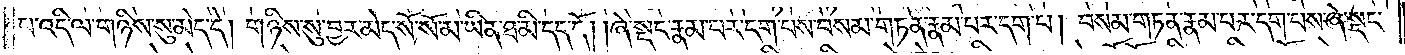པ་འདི་ལ་གཉིས་སུ་མེད་དེ། གཉིས་སུ་བྱར་མེད་སོ་སོ་མ་ཡིན་ཐ་མི་དད་དོ། །ཞེ་སྡང་རྣམ་པར་དག་པས་བསམ་གཏན་རྣམ་པར་དག་པ། བསམ་གཏན་རྣམ་པར་དག་པས་ཞེ་སྡང་
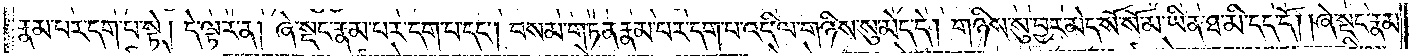རྣམ་པར་དག་པ་སྟེ། དེ་ལྟར་ན། ཞེ་སྡང་རྣམ་པར་དག་པ་དང༌། བསམ་གཏན་རྣམ་པར་དག་པ་འདི་ལ་གཉིས་སུ་མེད་དེ། གཉིས་སུ་བྱར་མེད་སོ་སོ་མ་ཡིན་ཐ་མི་དད་དོ། །ཞེ་སྡང་རྣམ་
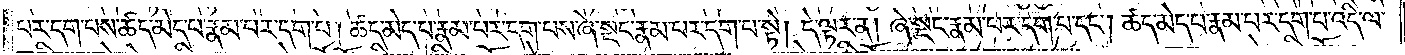པར་དག་པས་ཚད་མེད་པ་རྣམ་པར་དག་པ། ཚད་མེད་པ་རྣམ་པར་དག་པས་ཞེ་སྡང་རྣམ་པར་དག་པ་སྟེ། དེ་ལྟར་ན། ཞེ་སྡང་རྣམ་པར་དག་པ་དང༌། ཚད་མེད་པ་རྣམ་པར་དག་པ་འདི་ལ་
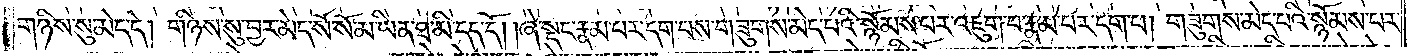གཉིས་སུ་མེད་དེ། གཉིས་སུ་བྱར་མེད་སོ་སོ་མ་ཡིན་ཐ་མི་དད་དོ། །ཞེ་སྡང་རྣམ་པར་དག་པས་གཟུགས་མེད་པའི་སྙོམས་པར་འཇུག་པ་རྣམ་པར་དག་པ། གཟུགས་མེད་པའི་སྙོམས་པར་
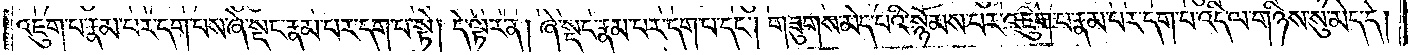འཇུག་པ་རྣམ་པར་དག་པས་ཞེ་སྡང་རྣམ་པར་དག་པ་སྟེ། དེ་ལྟར་ན། ཞེ་སྡང་རྣམ་པར་དག་པ་དང༌། གཟུགས་མེད་པའི་སྙོམས་པར་འཇུག་པ་རྣམ་པར་དག་པ་འདི་ལ་གཉིས་སུ་མེད་དེ།
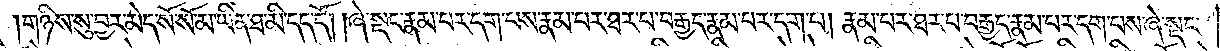གཉིས་སུ་བྱར་མེད་སོ་སོ་མ་ཡིན་ཐ་མི་དད་དོ། །ཞེ་སྡང་རྣམ་པར་དག་པས་རྣམ་པར་ཐར་པ་བརྒྱད་རྣམ་པར་དག་པ། རྣམ་པར་ཐར་པ་བརྒྱད་རྣམ་པར་དག་པས་ཞེ་སྡང་
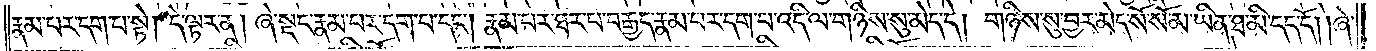རྣམ་པར་དག་པ་སྟེ། དེ་ལྟར་ན། ཞེ་སྡང་རྣམ་པར་དག་པ་དང༌། རྣམ་པར་ཐར་པ་བརྒྱད་རྣམ་པར་དག་པ་འདི་ལ་གཉིས་སུ་མེད་དེ། གཉིས་སུ་བྱར་མེད་སོ་སོ་མ་ཡིན་ཐ་མི་དད་དོ། །ཞེ་
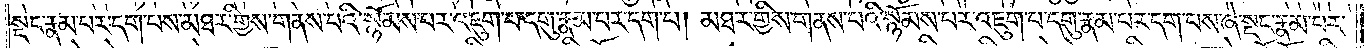སྡང་རྣམ་པར་དག་པས་མཐར་གྱིས་གནས་པའི་སྙོམས་པར་འཇུག་པ་དགུ་རྣམ་པར་དག་པ། མཐར་གྱིས་གནས་པའི་སྙོམས་པར་འཇུག་པ་དགུ་རྣམ་པར་དག་པས་ཞེ་སྡང་རྣམ་པར་
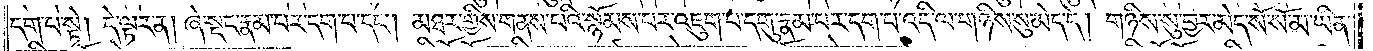དག་པ་སྟེ། དེ་ལྟར་ན། ཞེ་སྡང་རྣམ་པར་དག་པ་དང༌། མཐར་གྱིས་གནས་པའི་སྙོམས་པར་འཇུག་པ་དགུ་རྣམ་པར་དག་པ་འདི་ལ་གཉིས་སུ་མེད་དེ། གཉིས་སུ་བྱར་མེད་སོ་སོ་མ་ཡིན་
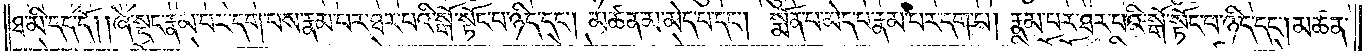ཐ་མི་དད་དོ། །ཞེ་སྡང་རྣམ་པར་དག་པས་རྣམ་པར་ཐར་པའི་སྒོ་སྟོང་པ་ཉིད་དང༌། མཚན་མ་མེད་པ་དང༌། སྨོན་པ་མེད་པ་རྣམ་པར་དག་པ། རྣམ་པར་ཐར་པའི་སྒོ་སྟོང་པ་ཉིད་དང༌། མཚན་
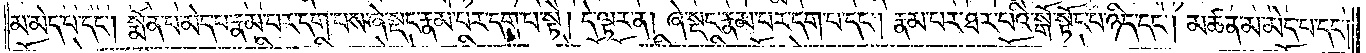མ་མེད་པ་དང༌། སྨོན་པ་མེད་པ་རྣམ་པར་དག་པས་ཞེ་སྡང་རྣམ་པར་དག་པ་སྟེ། དེ་ལྟར་ན། ཞེ་སྡང་རྣམ་པར་དག་པ་དང༌། རྣམ་པར་ཐར་པའི་སྒོ་སྟོང་པ་ཉིད་དང༌། མཚན་མ་མེད་པ་དང༌།
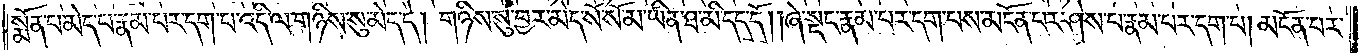སྨོན་པ་མེད་པ་རྣམ་པར་དག་པ་འདི་ལ་གཉིས་སུ་མེད་དེ། གཉིས་སུ་བྱར་མེད་སོ་སོ་མ་ཡིན་ཐ་མི་དད་དོ། །ཞེ་སྡང་རྣམ་པར་དག་པས་མངོན་པར་ཤེས་པ་རྣམ་པར་དག་པ། མངོན་པར་
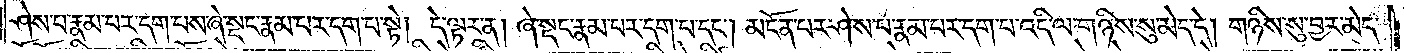ཤེས་པ་རྣམ་པར་དག་པས་ཞེ་སྡང་རྣམ་པར་དག་པ་སྟེ། དེ་ལྟར་ན། ཞེ་སྡང་རྣམ་པར་དག་པ་དང༌། མངོན་པར་ཤེས་པ་རྣམ་པར་དག་པ་འདི་ལ་གཉིས་སུ་མེད་དེ། གཉིས་སུ་བྱར་མེད་
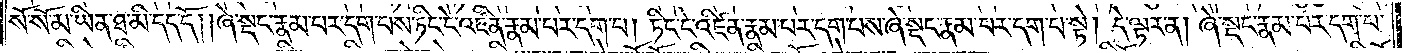སོ་སོ་མ་ཡིན་ཐ་མི་དད་དོ། །ཞེ་སྡང་རྣམ་པར་དག་པས་ཏིང་ངེ་འཛིན་རྣམ་པར་དག་པ། ཏིང་ངེ་འཛིན་རྣམ་པར་དག་པས་ཞེ་སྡང་རྣམ་པར་དག་པ་སྟེ། དེ་ལྟར་ན། ཞེ་སྡང་རྣམ་པར་དག་པ་
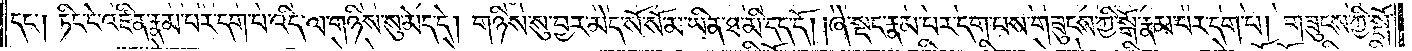དང༌། ཏིང་ངེ་འཛིན་རྣམ་པར་དག་པ་འདི་ལ་གཉིས་སུ་མེད་དེ། གཉིས་སུ་བྱར་མེད་སོ་སོ་མ་ཡིན་ཐ་མི་དད་དོ། །ཞེ་སྡང་རྣམ་པར་དག་པས་གཟུངས་ཀྱི་སྒོ་རྣམ་པར་དག་པ། གཟུངས་ཀྱི་སྒོ་
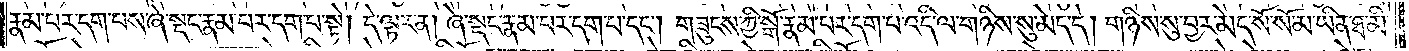རྣམ་པར་དག་པས་ཞེ་སྡང་རྣམ་པར་དག་པ་སྟེ། དེ་ལྟར་ན། ཞེ་སྡང་རྣམ་པར་དག་པ་དང༌། གཟུངས་ཀྱི་སྒོ་རྣམ་པར་དག་པ་འདི་ལ་གཉིས་སུ་མེད་དེ། གཉིས་སུ་བྱར་མེད་སོ་སོ་མ་ཡིན་ཐ་མི་
